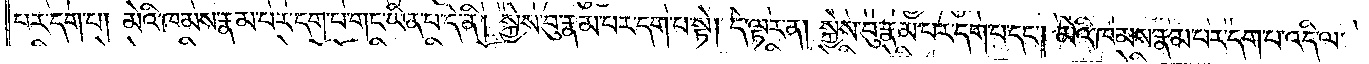པར་དག་པ། མེའི་ཁམས་རྣམ་པར་དག་པ་གང་ཡིན་པ་དེ་ནི། སྐྱེས་བུ་རྣམ་པར་དག་པ་སྟེ། དེ་ལྟར་ན། སྐྱེས་བུ་རྣམ་པར་དག་པ་དང༌། མེའི་ཁམས་རྣམ་པར་དག་པ་འདི་ལ་
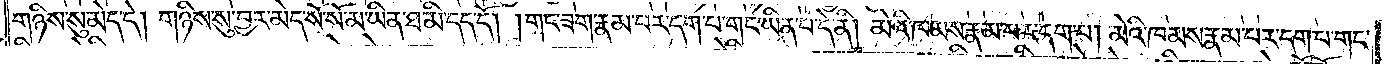གཉིས་སུ་མེད་དེ། གཉིས་སུ་བྱར་མེད་སོ་སོ་མ་ཡིན་ཐ་མི་དད་དོ། །གང་ཟག་རྣམ་པར་དག་པ་གང་ཡིན་པ་དེ་ནི། མེའི་ཁམས་རྣམ་པར་དག་པ། མེའི་ཁམས་རྣམ་པར་དག་པ་གང་
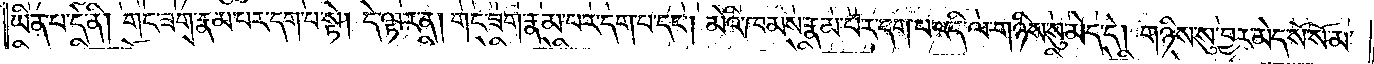ཡིན་པ་དེ་ནི། གང་ཟག་རྣམ་པར་དག་པ་སྟེ། དེ་ལྟར་ན། གང་ཟག་རྣམ་པར་དག་པ་དང༌། མེའི་ཁམས་རྣམ་པར་དག་པ་འདི་ལ་གཉིས་སུ་མེད་དེ། གཉིས་སུ་བྱར་མེད་སོ་སོ་མ་
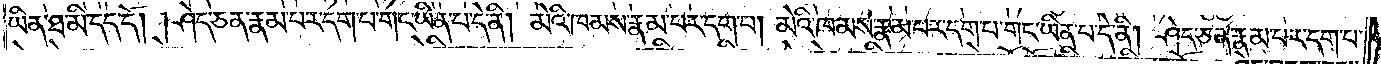ཡིན་ཐ་མི་དད་དོ། །ཤེད་ཅན་རྣམ་པར་དག་པ་གང་ཡིན་པ་དེ་ནི། མེའི་ཁམས་རྣམ་པར་དག་པ། མེའི་ཁམས་རྣམ་པར་དག་པ་གང་ཡིན་པ་དེ་ནི། ཤེད་ཅན་རྣམ་པར་དག་པ་
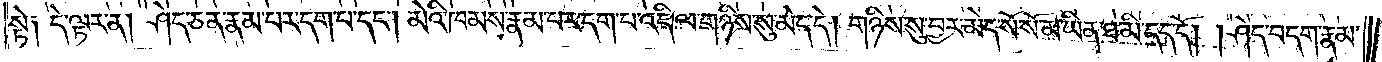སྟེ༑ དེ་ལྟར་ན། ཤེད་ཅན་རྣམ་པར་དག་པ་དང༌། མེའི་ཁམས་རྣམ་པར་དག་པ་འདི་ལ་གཉིས་སུ་མེད་དེ། གཉིས་སུ་བྱར་མེད་སོ་སོ་མ་ཡིན་ཐ་མི་དད་དོ། །ཤེད་བདག་རྣམ་
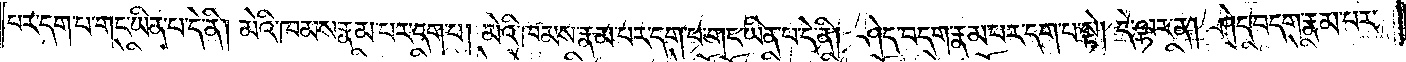པར་དག་པ་གང་ཡིན་པ་དེ་ནི། མེའི་ཁམས་རྣམ་པར་དག་པ། མེའི་ཁམས་རྣམ་པར་དག་པ་གང་ཡིན་པ་དེ་ནི། ཤེད་བདག་རྣམ་པར་དག་པ་སྟེ། དེ་ལྟར་ན། ཤེད་བདག་རྣམ་པར་
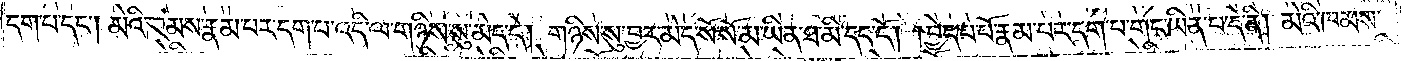དག་པ་དང༌། མེའི་ཁམས་རྣམ་པར་དག་པ་འདི་ལ་གཉིས་སུ་མེད་དེ། གཉིས་སུ་བྱར་མེད་སོ་སོ་མ་ཡིན་ཐ་མི་དད་དོ། །བྱེད་པ་པོ་རྣམ་པར་དག་པ་གང་ཡིན་པ་དེ་ནི། མེའི་ཁམས་
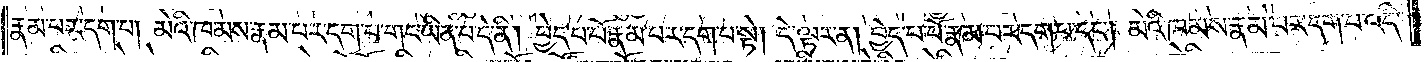རྣམ་པར་དག་པ། མེའི་ཁམས་རྣམ་པར་དག་པ་གང་ཡིན་པ་དེ་ནི། བྱེད་པ་པོ་རྣམ་པར་དག་པ་སྟེ། དེ་ལྟར་ན། བྱེད་པ་པོ་རྣམ་པར་དག་པ་དང༌། མེའི་ཁམས་རྣམ་པར་དག་པ་འདི་
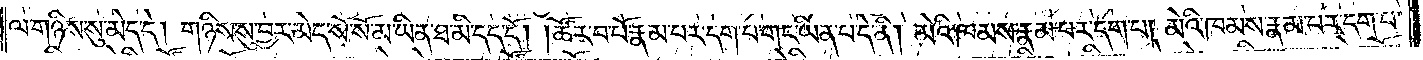ལ་གཉིས་སུ་མེད་དེ། གཉིས་སུ་བྱར་མེད་སོ་སོ་མ་ཡིན་ཐ་མི་དད་དོ། །ཚོར་བ་པོ་རྣམ་པར་དག་པ་གང་ཡིན་པ་དེ་ནི། མེའི་ཁམས་རྣམ་པར་དག་པ། མེའི་ཁམས་རྣམ་པར་དག་པ་
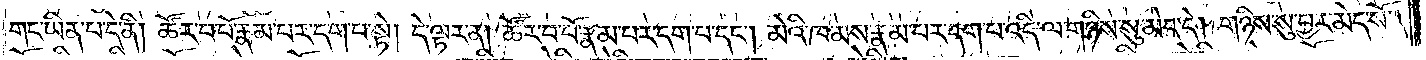གང་ཡིན་པ་དེ་ནི། ཚོར་བ་པོ་རྣམ་པར་དག་པ་སྟེ། དེ་ལྟར་ན། ཚོར་བ་པོ་རྣམ་པར་དག་པ་དང༌། མེའི་ཁམས་རྣམ་པར་དག་པ་འདི་ལ་གཉིས་སུ་མེད་དེ། གཉིས་སུ་བྱར་མེད་སོ་
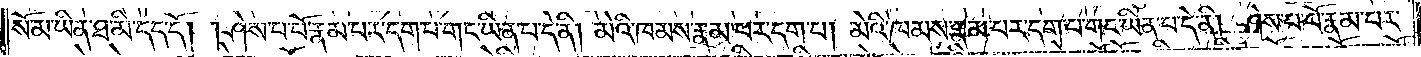སོ་མ་ཡིན་ཐ་མི་དད་དོ། །ཤེས་པ་པོ་རྣམ་པར་དག་པ་གང་ཡིན་པ་དེ་ནི། མེའི་ཁམས་རྣམ་པར་དག་པ། མེའི་ཁམས་རྣམ་པར་དག་པ་གང་ཡིན་པ་དེ་ནི། ཤེས་པ་པོ་རྣམ་པར་
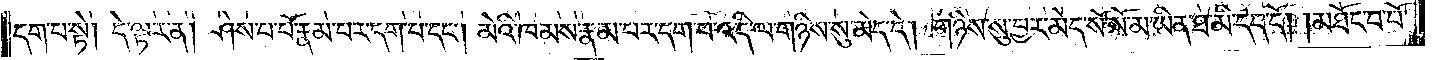དག་པ་སྟེ། དེ་ལྟར་ན། ཤེས་པ་པོ་རྣམ་པར་དག་པ་དང༌། མེའི་ཁམས་རྣམ་པར་དག་པ་འདི་ལ་གཉིས་སུ་མེད་དེ། གཉིས་སུ་བྱར་མེད་སོ་སོ་མ་ཡིན་ཐ་མི་དད་དོ། །མཐོང་བ་པོ་
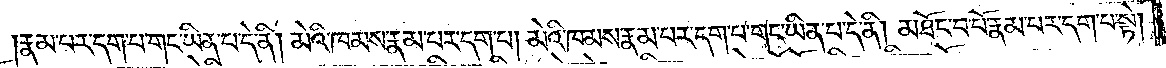རྣམ་པར་དག་པ་གང་ཡིན་པ་དེ་ནི། མེའི་ཁམས་རྣམ་པར་དག་པ། མེའི་ཁམས་རྣམ་པར་དག་པ་གང་ཡིན་པ་དེ་ནི། མཐོང་བ་པོ་རྣམ་པར་དག་པ་སྟེ།
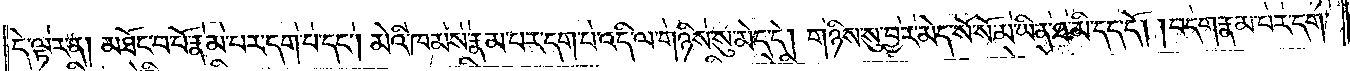དེ་ལྟར་ན། མཐོང་བ་པོ་རྣམ་པར་དག་པ་དང༌། མེའི་ཁམས་རྣམ་པར་དག་པ་འདི་ལ་གཉིས་སུ་མེད་དེ། གཉིས་སུ་བྱར་མེད་སོ་སོ་མ་ཡིན་ཐ་མི་དད་དོ། །བདག་རྣམ་པར་དག་
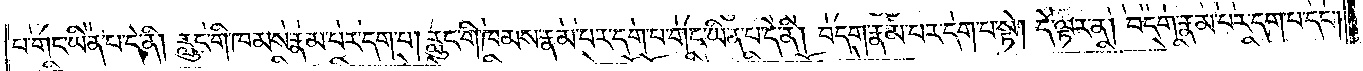པ་གང་ཡིན་པ་དེ་ནི། རླུང་གི་ཁམས་རྣམ་པར་དག་པ། རླུང་གི་ཁམས་རྣམ་པར་དག་པ་གང་ཡིན་པ་དེ་ནི། བདག་རྣམ་པར་དག་པ་སྟེ། དེ་ལྟར་ན། བདག་རྣམ་པར་དག་པ་དང༌།
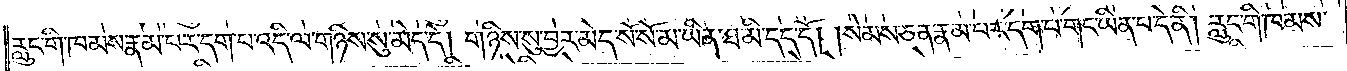རླུང་གི་ཁམས་རྣམ་པར་དག་པ་འདི་ལ་གཉིས་སུ་མེད་དེ། གཉིས་སུ་བྱར་མེད་སོ་སོ་མ་ཡིན་ཐ་མི་དད་དོ། །སེམས་ཅན་རྣམ་པར་དག་པ་གང་ཡིན་པ་དེ་ནི། རླུང་གི་ཁམས་
